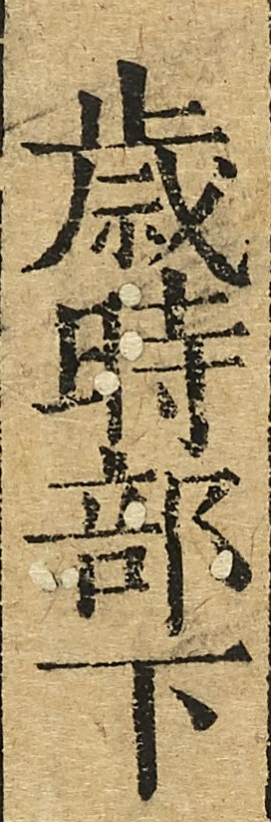歲時部下
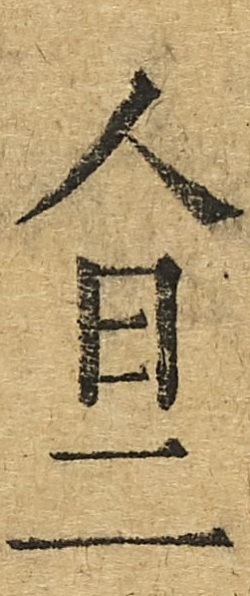人日二
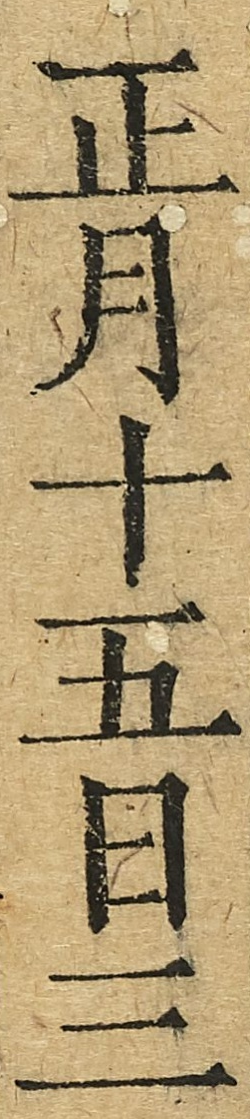正月十五日三
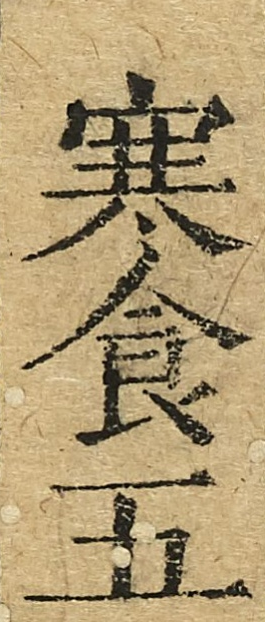寒食五
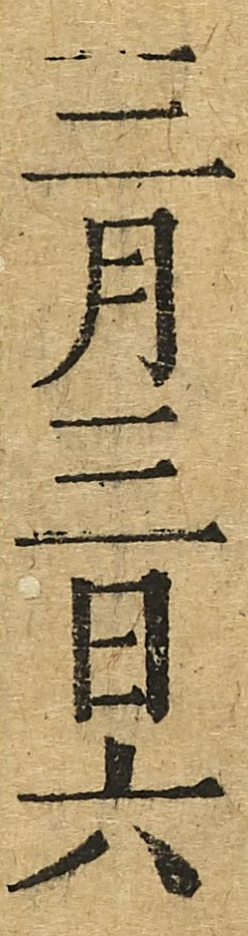三月三日六
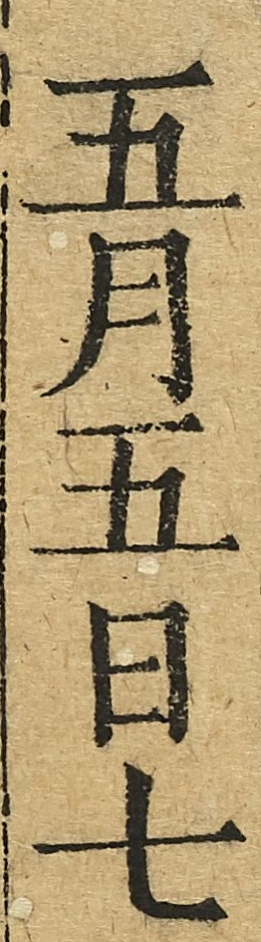五月五日七
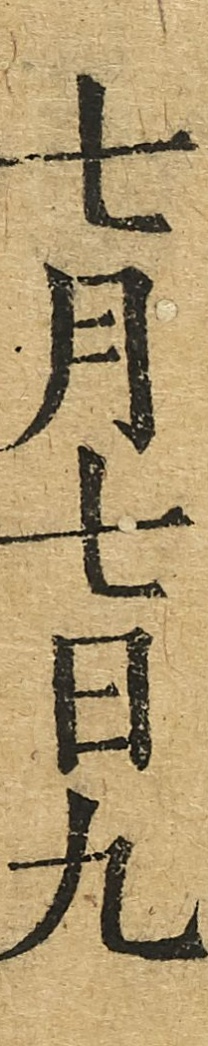七月七日九
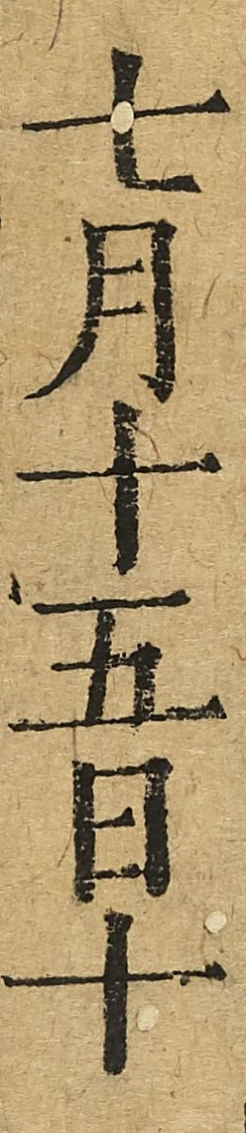十月十五日十
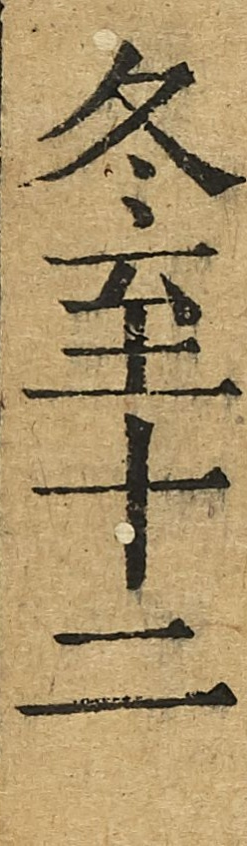冬至十二
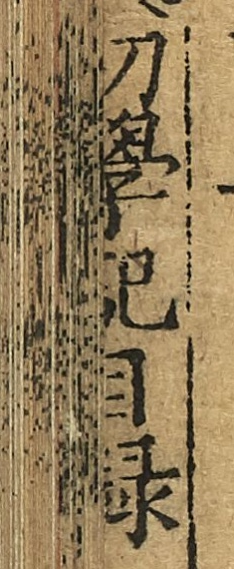初學記目錄
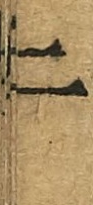二
